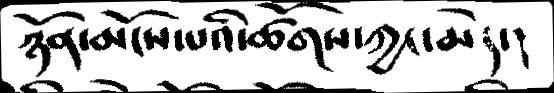ཉོན་མོངས་པའི་ཚོགས་ཀྱང་མེད་།
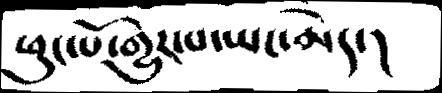ཕུང་པོ་གྱུར་པ་ཡང་མེད་།
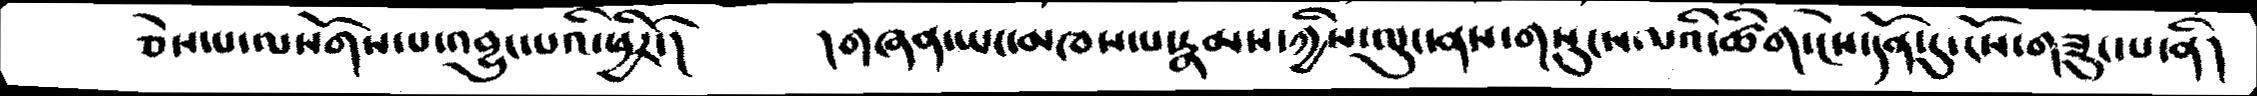ཅེས་པ་ལསོགས་པ་འབྱུང་པའི་ཕྱིར་།      །གཞན་ཡང་མཁས་པ་རྣམས་ཀྱིས་ལུང་ནས་གསུངས་པའི་ཚིག་ངེས་དོན་དུ་ངོས་གཟུང་པ་ནི།
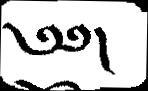༁༅།
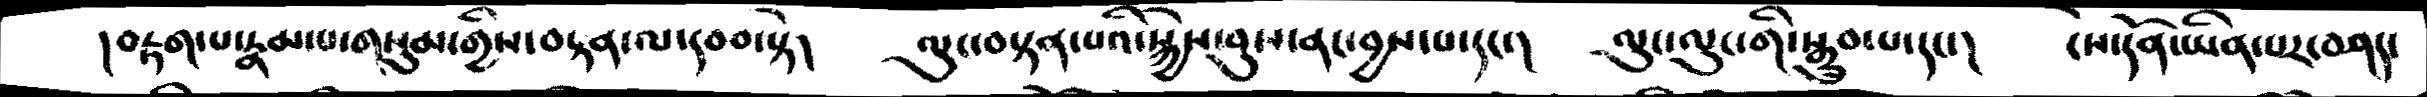།བརྟག་པ་རྣམ་པ་གསུམ་གྱིས་བརྟན་ལ་དབབ་སྟེ།    ལུང་བསྟན་པའི་སྐྱེས་བུས་ནང་བྱས་པ་དང་།    ལུང་ལུང་གི་སྒྲུབ་པ་དང་།   ངེས་དོན་ཡིན་པར་བཤད་
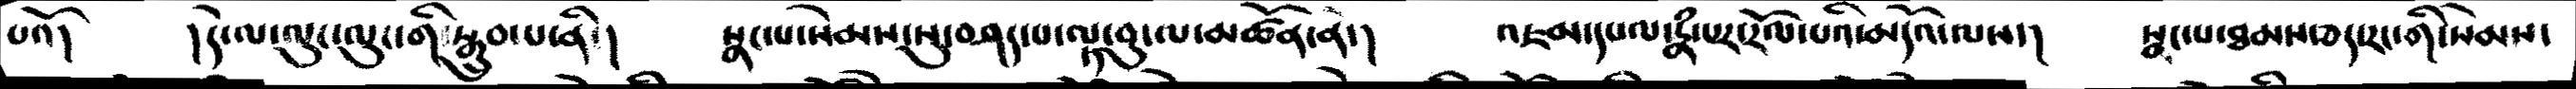པའོ།   །དེ་ལ་ལུང་ལུང་གི་སྒྲུབ་པ་ནི་།   སྣང་པ་སེམས་སུ་བཤད་པ་ལྟ་བུ་ལ་མཚོན་ན་།     འཇམ་དཔལ་རྣཾ་པར་རོལ་པའི་མདོའ་ལས་།    སྣང་པ་ཐམས་ཅད་རང་གི་སེམས་
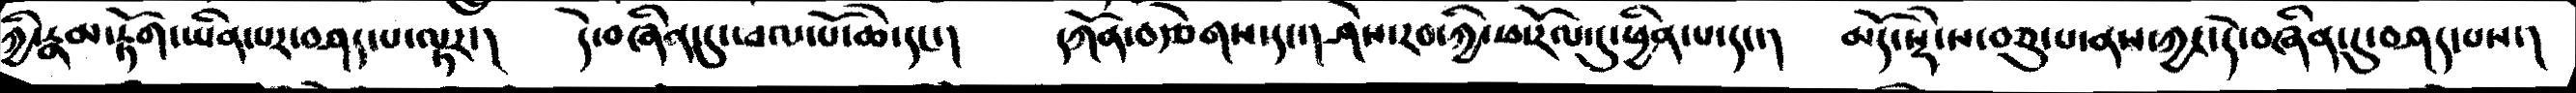ཀྱི་རྣམ་རྟོག་ཡིན་པར་བཤད་པ་ལྟར་།   དེ་བཞིན་དུ་ཕལ་པོ་ཆེ་དང་།    དཀོན་རྩེགས་དང་ཤེས་རབ་ཀྱི་ཕ་རོལ་དུ་ཕྱིན་པ་དང་།   མདོ་སྡེ་ས་བཅུ་པ་ནས་ཀྱང་དེ་བཞིན་དུ་བཤད་པས་།
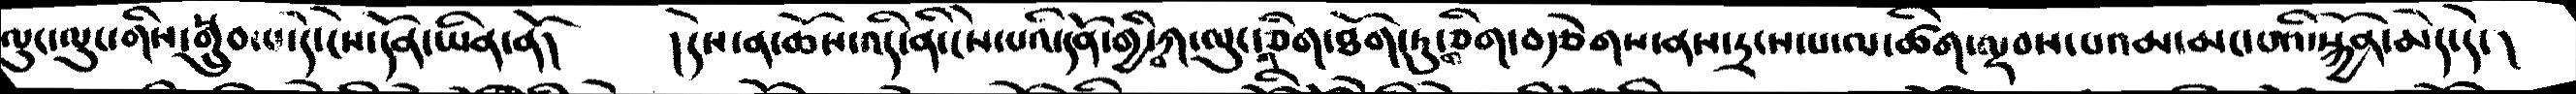ལུང་ལུང་གིས་སྒྲུབ་པ་དེ་ངེས་དོན་ཡིན་ནོ།    ། དེས་ན་ཆོས་འདི་ནི་ངེས་པའི་དོན་གྱི་བཀ་ལུང་གཅིག་བརྩེགས་ནས་ཏྲངས་པ་ལ་ཚིག་ལྡབས་པའམ་མང་པའི་སྐྱོན་མེད་དེ་།
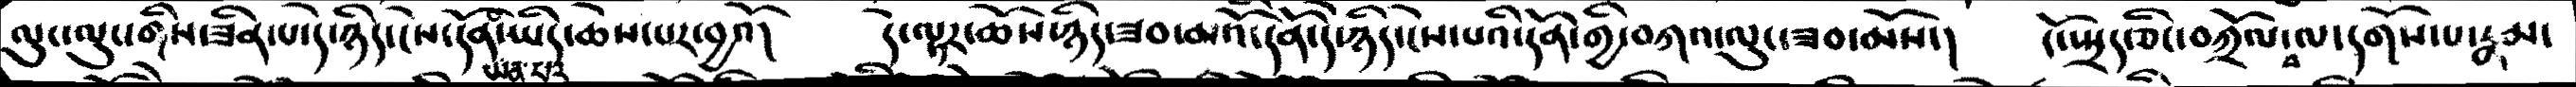ལུང་ལུང་གིས་ཟིན་པ་དེ་ཉིད་ངེས་དོན་ཡིན་པར་ཡིད་ཆེས་པར་བྱའོ།   དེ་ལྟར་ཆོས་ཉིད་ཟབ་མོའ་དོན་དེ་ཉིད་ངེས་པའི་དོན་གྱི་བཀའ་ཟབ་མོས་།   ངོ་ཡྲད་ཅིང་བཀྲོལ་བ་ལ་དགོས་པ་རྣམ་
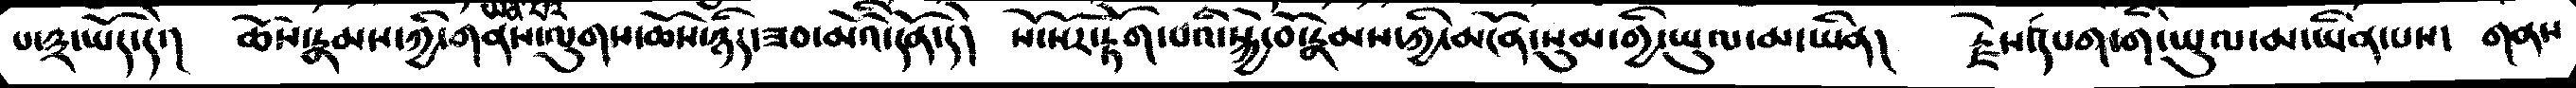པ་༣་ཡོད་དེ་།   ཆོས་རྣམས་ཀྱི་གནས་ལུགས་ཆོས་ཉིད་ཟབ་མོའི་དོན་དེ།   སོ་སོར་རྟོག་པའི་སྐྱེ་བོ་རྣམས་ཀྱི་མངོན་སུམ་གྱི་ཡུལ་མ་ཡིན།   རྗེས་དཔག་གི་ཡུལ་མ་ཡིན་པས་ གནས་
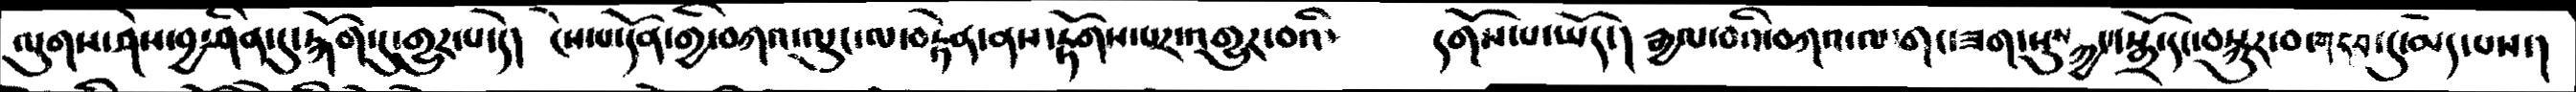ལུགས་ཤེས་བྱ་ཤིན་དུ་སྐོག་དུ་གྱུར་པ་དེ།   ངེས་པ་དོན་གྱི་བཀའ་ལུང་ལ་བརྟེན་ནས་རྟོགས་པར་འགྱུར་བའི་    དགོས་པ་ཡོད་།  རྒྱལ་བའི་བཀའ་ལ་གང་ཟག་སུས་ཀྱང་སྒྲོ་དང་བསྐུར་བ་གདབ་དུ་མེད་པས་།
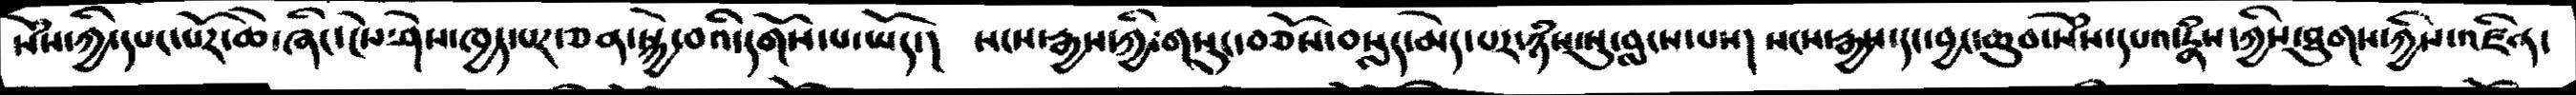སེཾས་ཀྱི་དཔང་པོར་ཆེ་ཞིང་ངེས་ཤེས་ཁྱད་པར་ཅན་སྐྱེ་བའི་དགོས་པ་ཡོད་།   སངས་རྒྱས་ཀྱི་གསུང་བཅོས་བསླད་མེད་པར་ཉཾས་སུ་བླངས་པས།    སངས་རྒྱས་དང་བྱང་ཆུབ་སེཾས་དཔའ་རྣཾས་ཀྱིས་ཐུགས་ཀྱིས་འཛིན་
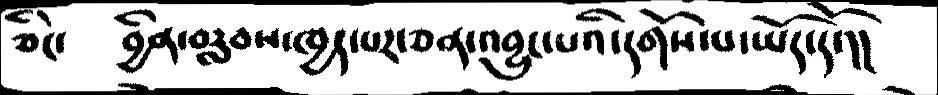ཅིང་     བྱིན་བརླབས་ཁྱད་པར་ཅན་འབྱུང་པའི་དགོས་པ་ཡོད་དོ་།།
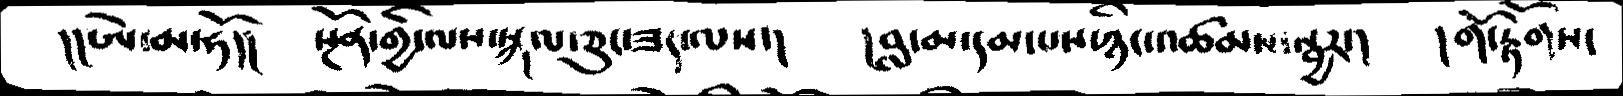།།ཨེ་མ་ཧོ།།    སྔོན་གྱི་ལས་སྐལ་ཅུང་ཟད་ལས་།       །བླ་མ་དམ་པས་ཉིང་འཚམས་སྦྱར་།    །གོ་རྟོགས་
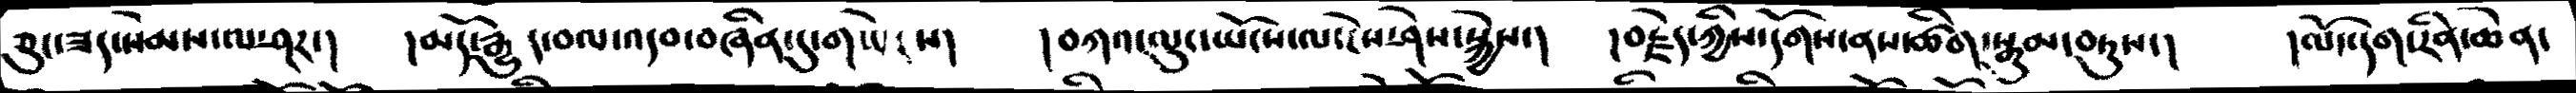ཅུང་ཟད་སེམས་ལ་ཤར་།    །མདོ་རྒྱུད་བལ་འདབ་བཞིན་དུ་གཡེངས།    །བཀའ་ལུང་ཡོངས་ལ་ངེས་ཤེས་སྐྱེས་།   །བརྗེད་ཀྱིས་དགོས་ནས་ཚིག་སྒུམ་བཏུས་།   །ལོ་དག་རིན་ཆེན་
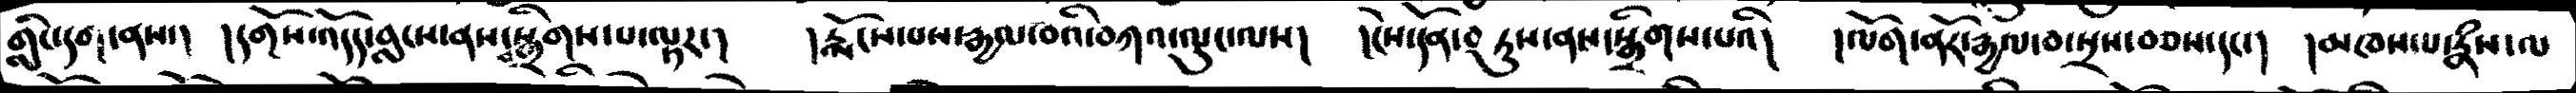གླིང་དག་ནས་།   །དགོས་འདོད་བླངས་ནས་བསྒྲིགས་ལྟར་།   ། རྨོངས་པས་རྒྱལ་བའི་བཀའ་ལུང་ལས།   །ངེས་དོན་བཏུས་ནས་སྒྲིགས་པའི།   །ལོག་ནོར་རྒྱལ་བ་སྲས་བཅས་དང་།  མཁས་པ་རྣཾས་ལ
